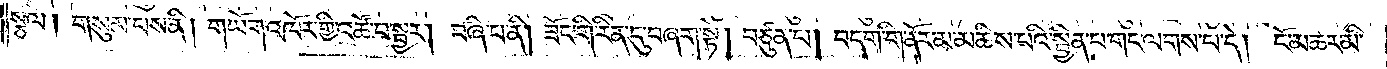སྩལ། གསུམ་པས་ནི། གཡོག་འཁོར་གྱི་འཚོ་བ་སྦྱར། བཞི་པ་ནི། ཟོང་གི་རིན་དུ་བཞག་སྟེ། བཙུན་པ། བདག་གི་ནོར་མ་མཆིས་པའི་སྦྱིན་པ་གང་ལགས་པ་དེ། ངོ་མཚར་མི་
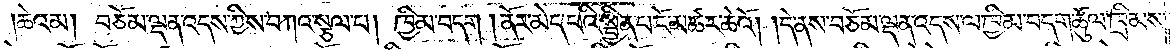ཆེའམ། བཅོམ་ལྡན་འདས་ཀྱིས་བཀའ་སྩལ་པ། ཁྱིམ་བདག། ནོར་མེད་པའི་སྦྱིན་པ་ངོ་མཚར་ཆེའོ། །དེ་ནས་བཅོམ་ལྡན་འདས་ལ་ཁྱིམ་བདག་ཚུལ་ཁྲིམས་
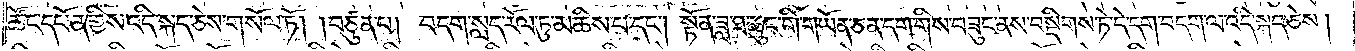ཚོང་དཔོན་གྱིས་འདི་སྐད་ཅེས་གསོལ་ཏོ། །བཙུན་པ། བདག་སླད་རོལ་ཏུ་མཆིས་པ་དང༌། སྟོན་ཟླ་ཐ་ཆུང་གི་གཡོན་ཅན་དག་གིས་བཟུང་ནས་བསྡིགས་ཏེ་དེ་དག་བདག་ལ་འདི་སྐད་ཅེས།
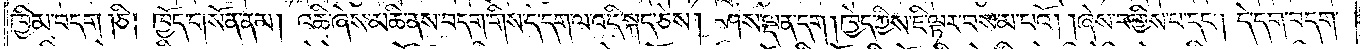ཁྱིམ་བདག །ཅི། ཁྱོད་གསོན་ནམ། འཆི་ཞེས་མཆི་ནས་བདག་གིས་དེ་དག་ལ་འདི་སྐད་ཅེས། ཤེས་ལྡན་དག །ཁྱེད་ཀྱིས་ཇི་ལྟར་བསམ་པའོ། །ཞེས་བགྱིས་པ་དང༌། དེ་དག་བདག་
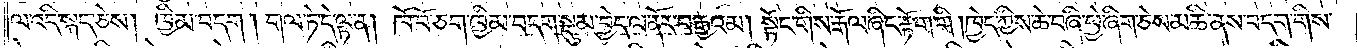ལ་འདི་སྐད་ཅེས། ཁྱིམ་བདག །གལ་ཏེ་དེ་ལྟ་ན། ཁེ་བོ་ཅག་ཁྱིམ་བདག་སྡུམ་བྱེད་ལ་ནོར་བརྒྱའམ། སྟོང་གིས་རྒོལ་ཞིང་རྟོག་གི། ཁྱེད་ཀྱིས་ཆེ་བཞི་ཕྱེ་ཞིག་ཅེས་མཆི་ནས་བདག་གིས་
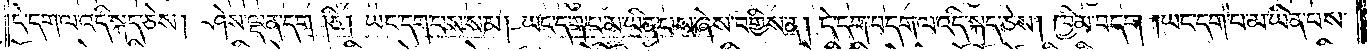དེ་དག་ལ་འདི་སྐད་ཅེས། ཤེས་ལྡན་དག །ཅི། ཡང་དག་པས་སམ། ཡང་དག་པ་མ་ཡིན་པས་ཞེས་བགྱིས་ན། དེ་དག་བདག་ལ་འདི་སྐད་ཅེས། ཁྱིམ་བདག །ཡང་དག་པ་མ་ཡིན་པས་
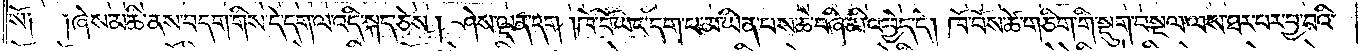སོ༑  ༑ཞེས་མཆི་ནས་བདག་གིས་དེ་དག་ལ་འདི་སྐད་ཅེས། ཤེས་ལྡན་དག །ཁོ་བོ་ཡང་དག་པ་མ་ཡིན་པས་ཆེ་བཞི་མི་འབྱེད་དེ། ཁོ་བོས་ཚེ་གཅིག་གི་སྡུག་བསྔལ་ལས་ཐར་པར་བྱ་བའི་
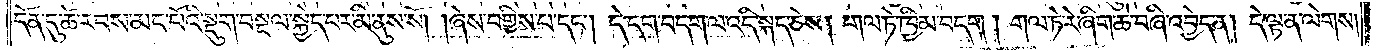དོན་དུ་ཚེ་རབས་མང་པོའི་སྡུག་བསྔལ་སྐྱེད་པར་མི་ནུས་སོ། །ཞེས་བགྱིས་པ་དང༌། དེ་དག་བདག་ལ་འདི་སྐད་ཅེས། གལ་ཏེ་ཁྱིམ་བདག །གལ་ཏེ་རེ་ཞིག་ཆེ་བཞི་འབྱེད་ན། དེ་ལྟ་ན་ལེགས།
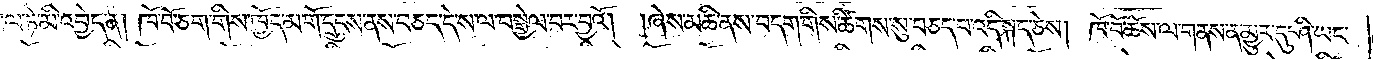གལ་ཏེ་མི་འབྱེད་ན། ཁོ་བོ་ཅག་གིས་ཁྱོད་མགོ་དྲུངས་ནས་བཅད་དེ་ས་ལ་བསྒྱེལ་བར་བྱའོ། །ཞེས་མཆི་ནས་བདག་གིས་ཚིགས་སུ་བཅད་པ་འདི་སྐད་ཅེས། ཁོ་བོ་ཆོས་ལ་གནས་ན་མྱུར་དུ་ཤི་ཡང་
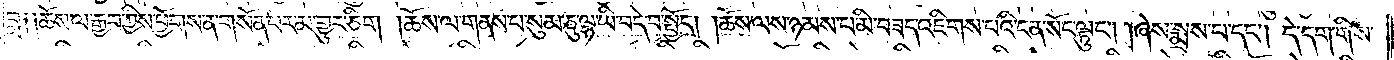བླ༑༑ཆོས་ལ་རྒྱབ་ཀྱིས་ཕྱོགས་ན་གསོན་པར་མ་གྱུར་ཅིག །ཆོས་ལ་གནས་པ་སུམ་ཅུ་ལྷ་ཡི་བདེ་བ་སྤྱོད། །ཆོས་ལས་ཉམས་པ་མི་བཟད་འཇིགས་པའི་ངན་སོང་ལྟུང༌། །ཞས་སྨྲས་པ་དང༌། དེ་དག་གིས་
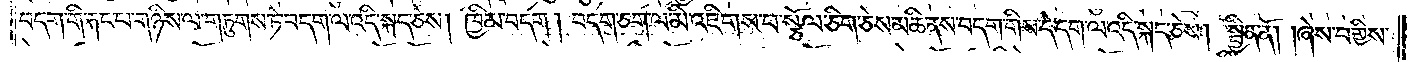བདག་གི་རྐང་པ་གཉིས་ལ་གཏུགས་ཏེ་བདག་ལ་འདི་སྐད་ཅེས། ཁྱིམ་བདག །བདག་ཅག་ལ་མི་འཇིགས་པ་སྩོལ་ཅིག་ཅེས་མཆི་ནས་བདག་གིས་དེ་དག་ལ་འདི་སྐད་ཅེས། སྦྱིན་ནོ། །ཞེས་བགྱིས་
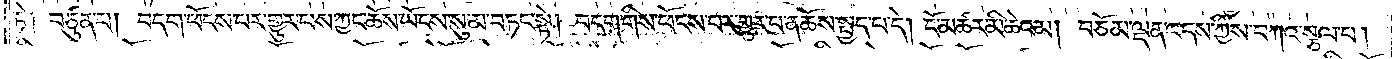ཏེ༑ བཙུན་པ། བདག་ཕོངས་པར་གྱུར་པས་ཀྱང་ཆོས་ཡོངས་སུ་མ་བཏང་སྟེ། བདག་གིས་ཕོངས་པར་གྱུར་པ་ན་ཆོས་སྤྱད་པ་དེ། ངོ་མཚར་མི་ཆེའམ། བཅོམ་ལྡན་འདས་ཀྱིས་བཀའ་སྩལ་པ།
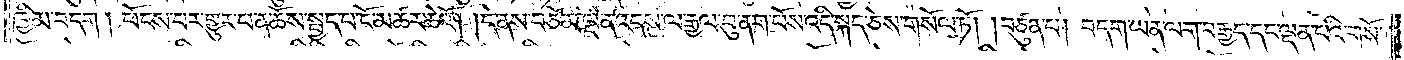ཁྱིམ་བདག །ཕོངས་པར་གྱུར་པ་ན་ཆོས་སྤྱད་པ་ངོ་མཚར་ཆེའོ། །དེ་ནས་བཅོམ་ལྡན་འདས་ལ་རྒྱལ་བུ་ནག་པོས་འདི་སྐད་ཅེས་གསོལ་ཏོ། །བཙུན་པ། བདག་ཡན་ལག་བརྒྱད་དང་ལྡན་པའི་གསོ་
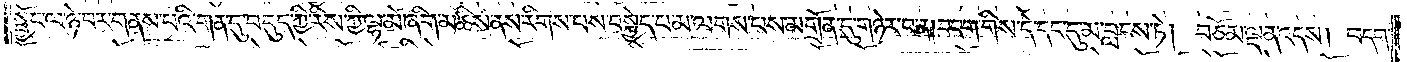སྦྱོང་ལ་ཉེ་བར་གནས་པའི་གན་དུ་བདུད་ཀྱི་རིས་ཀྱི་ལྷ་མོ་ཞིག་མཆིས་ནས་རིགས་པས་བསྐྱེད་པ་མ་ལགས་པས་མགྲོན་དུ་གཉེར་བ་ན། བདག་གིས་དེ་དང་དུ་མ་བླངས་ཏེ། བཅོམ་ལྡན་འདས། བདག་
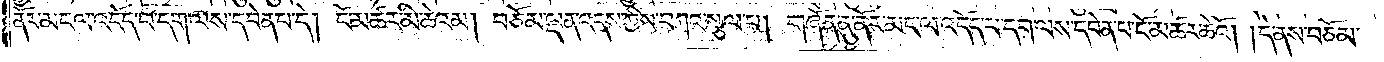ནོར་མངལ་འདོད་པ་དག་ལས་དབེན་པ་དེ། ངོ་མཚར་མི་ཆེའམ། བཅོམ་ལྡན་འདས་ཀྱིས་བཀའ་སྩལ་པ། གཞོན་ནུ་ནོར་མང་ལ་འདོད་པ་དག་ལས་དབེན་པ་ངོ་མཚར་ཆེའོ། །དེ་ནས་བཅོམ་
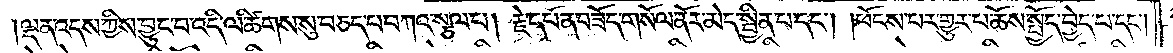ལྡན་འདས་ཀྱིས་བྱུང་བ་འདི་ལ་ཚིགས་སུ་བཅད་པ་བཀའ་སྩལ་པ། རྗེ་དཔོན་བཟོད་གསོལ་ནོར་མེད་སྦྱིན་པ་དང༌། །ཕོངས་པར་གྱུར་པ་ཆོས་སྤྱོད་བྱེད་པ་དང༌།
